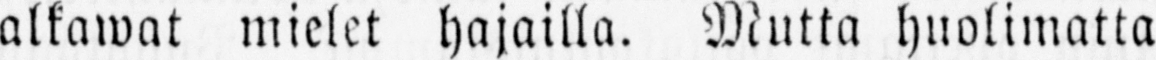alkawat mielet hajailla. Mutta huolimatta
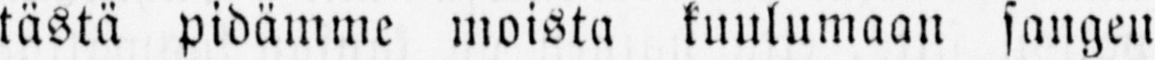tästä pidämme moista kuulumaan sangen
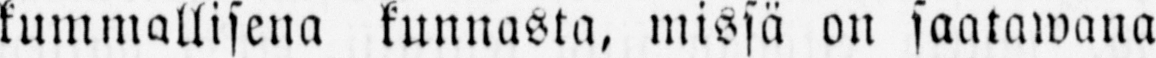kummallisena kunnasta, missä on saatawana
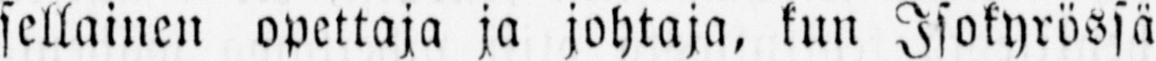sellainen opettaja ja johtaja, kun Isokyrössä
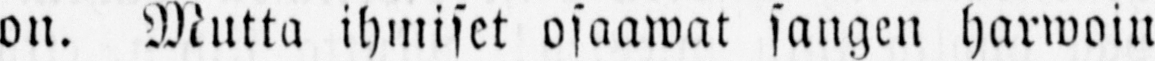on. Mutta ihmiset osaawat sangen harwoin
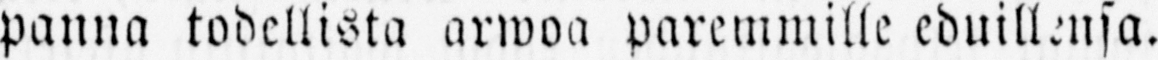panna todellista arwoa paremmille eduillensa.
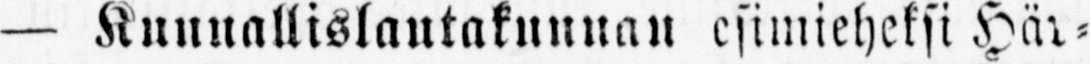— Kuunallislantakunnan esimieheksi Här-
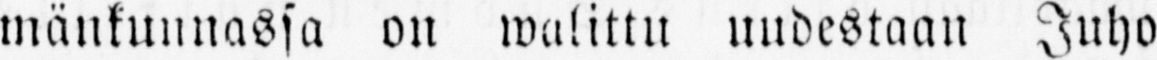mänkunnassa on walittu uudestaan Juho
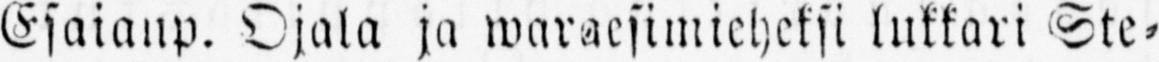Esaianp. Ojala jo waraesimieheksi lukkari Ste-
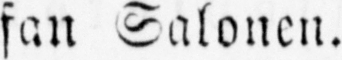fan Salonen.
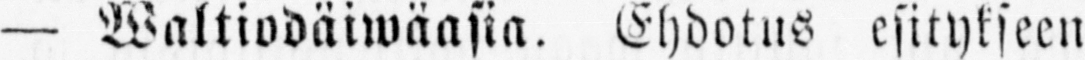— Waltiodäiwäasia. Ehdotus esitykseen
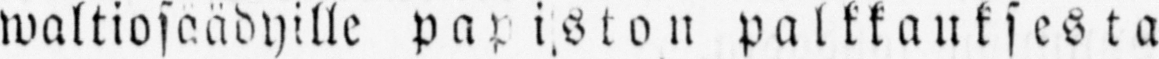waltiosäädyille papis ton palkkauksesta
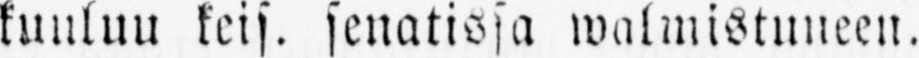kuuluu keis. senatissa walmistuneen.
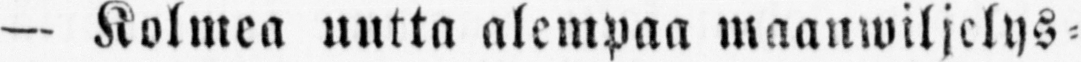— Kolmea uutta alempaa maanwiljelys-
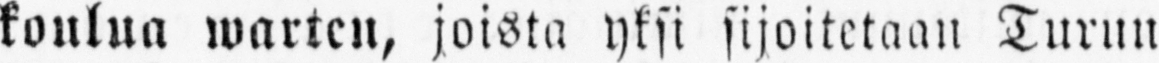koulua warten, joista yksi sijoitetaan Turun
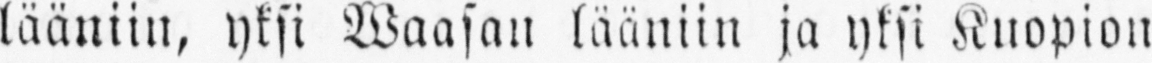lääniin, yksi Waasan lääniin ja yksi Kuopion
